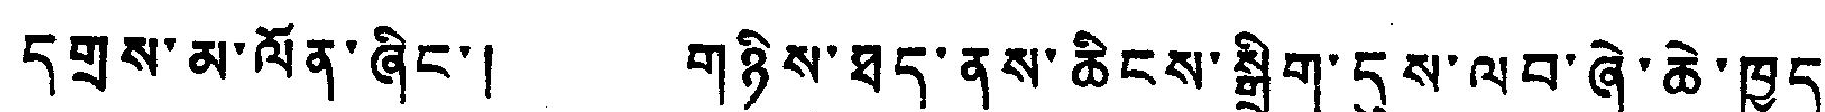དགྲས་མ་ལོན་ཞིང་། གཉིས་ཐད་ནས་ཆིངས་སྒྲིག་དུས་ལབ་ཞེ་ཆེ་ཁྱད་
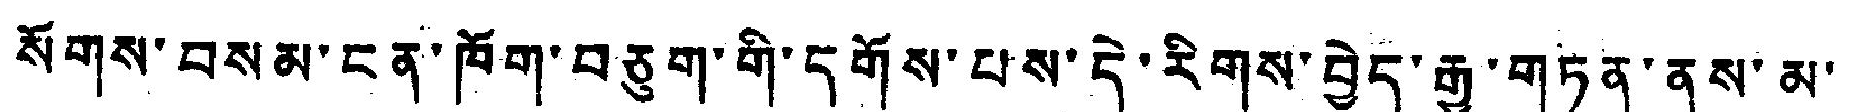སོགས་བསམ་ངན་ཁོག་བཅུག་གི་དགོས་པས་དེ་རིགས་བྱེད་རྒྱུ་གཏན་ནས་མ་
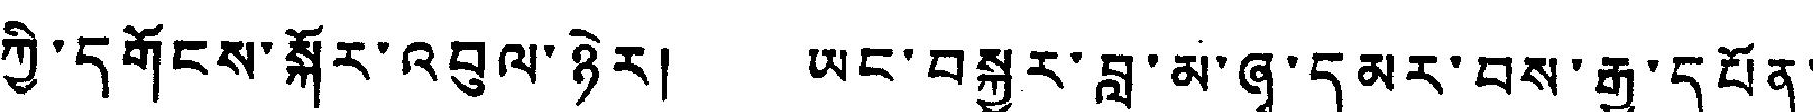ཀྱི་དགོངས་སྐོར་འབུལ་ཉེར། ཡང་བསྐྱར་བླ་མ་ཞྭ་དམར་བས་རྒྱ་དཔོན་
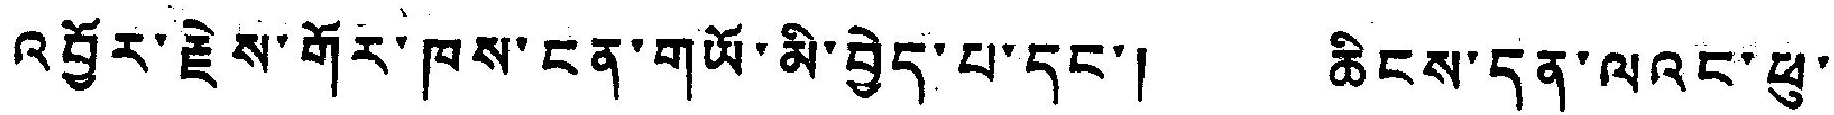འབྱོར་རྗེས་གོར་ཁས་ངན་གཡོ་མི་བྱེད་པ་དང་། ཆིངས་དན་ལའང་ཕུ་
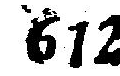612
